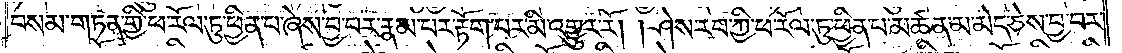བསམ་གཏན་གྱི་ཕ་རོལ་ཏུ་ཕྱིན་པ་ཞེས་བྱ་བར་རྣམ་པར་རྟོག་པར་མི་འགྱུར་རོ། །ཤེས་རབ་ཀྱི་ཕ་རོལ་ཏུ་ཕྱིན་པ་མཚན་མ་མེད་ཅེས་བྱ་བར་
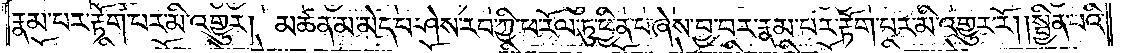རྣམ་པར་རྟོག་པར་མི་འགྱུར། མཚན་མ་མེད་པ་ཤེས་རབ་ཀྱི་ཕ་རོལ་ཏུ་ཕྱིན་པ་ཞེས་བྱ་བར་རྣམ་པར་རྟོག་པར་མི་འགྱུར་རོ། །སྦྱིན་པའི་
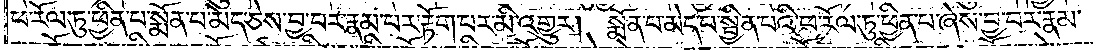ཕ་རོལ་ཏུ་ཕྱིན་པ་སྨོན་པ་མེད་ཅེས་བྱ་བར་རྣམ་པར་རྟོག་པར་མི་འགྱུར། སྨོན་པ་མེད་པ་སྦྱིན་པའི་ཕ་རོལ་ཏུ་ཕྱིན་པ་ཞེས་བྱ་བར་རྣམ་
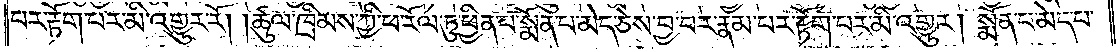པར་རྟོག་པར་མི་འགྱུར་རོ། །ཚུལ་ཁྲིམས་ཀྱི་ཕ་རོལ་ཏུ་ཕྱིན་པ་སྨོན་པ་མེད་ཅེས་བྱ་བར་རྣམ་པར་རྟོག་པར་མི་འགྱུར། སྨོན་པ་མེད་པ་
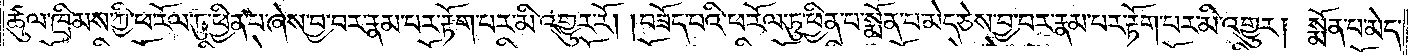ཚུལ་ཁྲིམས་ཀྱི་ཕ་རོལ་ཏུ་ཕྱིན་པ་ཞེས་བྱ་བར་རྣམ་པར་རྟོག་པར་མི་འགྱུར་རོ། །བཟོད་པའི་ཕ་རོལ་ཏུ་ཕྱིན་པ་སྨོན་པ་མེད་ཅེས་བྱ་བར་རྣམ་པར་རྟོག་པར་མི་འགྱུར། སྨོན་པ་མེད་
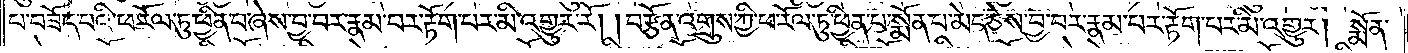པ་བཟོད་པའི་ཕ་རོལ་ཏུ་ཕྱིན་པ་ཞེས་བྱ་བར་རྣམ་པར་རྟོག་པར་མི་འགྱུར་རོ། །བརྩོན་འགྲུས་ཀྱི་ཕ་རོལ་ཏུ་ཕྱིན་པ་སྨོན་པ་མེད་ཅེས་བྱ་བར་རྣམ་པར་རྟོག་པར་མི་འགྱུར། སྨོན་
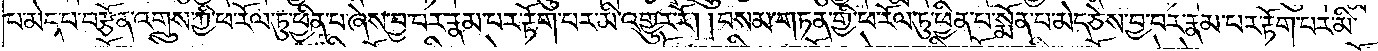པ་མེད་པ་བརྩོན་འགྲུས་ཀྱི་ཕ་རོལ་ཏུ་ཕྱིན་པ་ཞེས་བྱ་བར་རྣམ་པར་རྟོག་པར་མི་འགྱུར་རོ། །བསམ་གཏན་གྱི་ཕ་རོལ་ཏུ་ཕྱིན་པ་སྨོན་པ་མེད་ཅེས་བྱ་བར་རྣམ་པར་རྟོག་པར་མི་
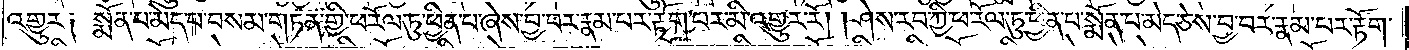འགྱུར༏ སྨོན་པ་མེད་པ་བསམ་གཏན་གྱི་ཕ་རོལ་ཏུ་ཕྱིན་པ་ཞེས་བྱ་བར་རྣམ་པར་རྟོག་པར་མི་འགྱུར་རོ། །ཤེས་རབ་ཀྱི་ཕ་རོལ་ཏུ་ཕྱིན་པ་སྨོན་བ་མེད་ཅེས་བྱ་བར་རྣམ་པར་རྟོག་
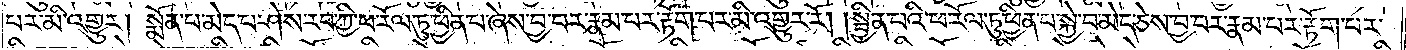པར་མི་འགྱུར། སྨོན་པ་མེད་པ་ཤེས་རབ་ཀྱི་ཕ་རོལ་ཏུ་ཕྱིན་པ་ཞེས་བྱ་བར་རྣམ་པར་རྟོག་པར་མི་འགྱུར་རོ། །སྦྱིན་པའི་ཕ་རོལ་ཏུ་ཕྱིན་པ་སྐྱེ་བ་མེད་ཅེས་བྱ་བར་རྣམ་པར་རྟོག་པར་
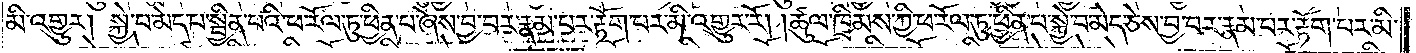མི་འགྱུར། སྐྱེ་བ་མེད་པ་སྦྱིན་པའི་ཕ་རོལ་ཏུ་ཕྱིན་པ་ཞེས་བྱ་བར་རྣམ་པར་རྟོག་པར་མི་འགྱུར་རོ། །ཚུལ་ཁྲིམས་ཀྱི་ཕ་རོལ་ཏུ་ཕྱིན་པ་སྐྱེ་བ་མེད་ཅེས་བྱ་བར་རྣམ་པར་རྟོག་པར་མི་
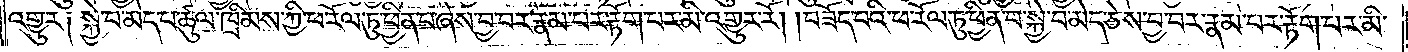འགྱུར༏ སྐྱེ་བ་མེད་པ་ཚུལ་ཁྲིམས་ཀྱི་ཕ་རོལ་ཏུ་ཕྱིན་པ་ཞེས་བྱ་བར་རྣམ་པར་རྟོག་པར་མི་འགྱུར་རོ། །བཟོད་བའི་ཕ་རོལ་ཏུ་ཕྱིན་པ་སྐྱེ་བ་མེད་ཅེས་བྱ་བར་རྣམ་པར་རྟོག་པར་མི་
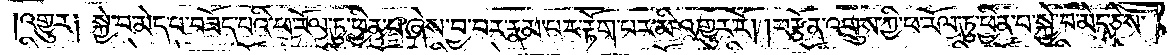འགྱུར༏ སྐྱེ་བ་མེད་པ་བཟོད་པའི་ཕ་རོལ་ཏུ་ཕྱིན་པ་ཞེས་བྱ་བར་རྣམ་པར་རྟོག་པར་མི་འགྱུར་རོ། །བརྩོན་འགྲུས་ཀྱི་ཕ་རོལ་ཏུ་ཕྱིན་པ་སྐྱེ་བ་མེད་ཅེས་
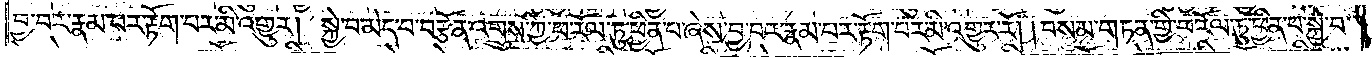བྱ་བར་རྣམ་པར་རྟོག་པར་མི་འགྱུར། སྐྱེ་བ་མེད་པ་བརྩོན་འགྲུས་ཀྱི་ཕ་རོལ་ཏུ་ཕྱིན་པ་ཞེས་བྱ་བར་རྣམ་པར་རྟོག་པར་མི་འགྱུར་རོ། །བསམ་གཏན་གྱི་ཕ་རོལ་ཏུ་ཕྱིན་པ་སྐྱེ་བ་
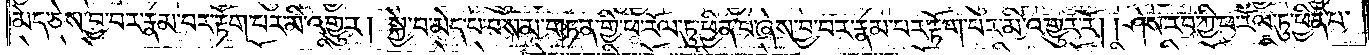མེད་ཅེས་བྱ་བར་རྣམ་པར་རྟོག་པར་མི་འགྱུར། སྐྱེ་བ་མེད་པ་བསམ་གཏན་གྱི་ཕ་རོལ་ཏུ་ཕྱིན་པ་ཞེས་བྱ་བར་རྣམ་པར་རྟོག་པར་མི་འགྱུར་རོ། །ཤེས་རབ་ཀྱི་ཕ་རོལ་ཏུ་ཕྱིན་པ་
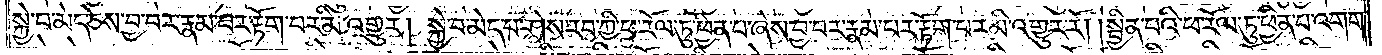སྐྱེ་བ་མེད་ཅེས་བྱ་བར་རྣམ་པར་རྟོག་པར་མི་འགྱུར། སྐྱེ་བ་མེད་པ་ཤེས་རབ་ཀྱི་ཕ་རོལ་ཏུ་ཕྱིན་པ་ཞེས་བྱ་བར་རྣམ་པར་རྟོག་པར་མི་འགྱུར་རོ། །སྦྱིན་པའི་ཕ་རོལ་ཏུ་ཕྱིན་པ་འགག་
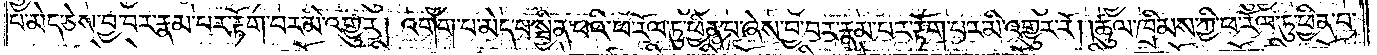པ་མེད་ཅེས་བྱ་བར་རྣམ་པར་རྟོག་པར་མི་འགྱུར། འགག་པ་མེད་པ་སྦྱིན་པའི་ཕ་རོལ་ཏུ་ཕྱིན་པ་ཞེས་བྱ་བར་རྣམ་པར་རྟོག་པར་མི་འགྱུར་རོ། །ཚུལ་ཁྲིམས་ཀྱི་ཕ་རོལ་ཏུ་ཕྱིན་པ་
